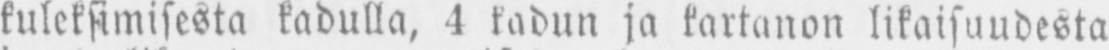kuleksimisesta kadulla, 4 kadun ja kartanon likaisuudesta
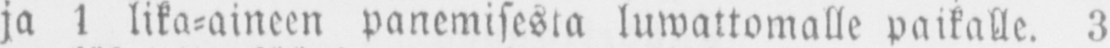ja 1 lika-aineen panemisesta luwattomalle paikalle. 3
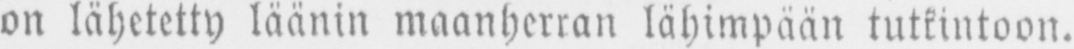on lähetetty läänin maanherran lähimpään tutkintoon.
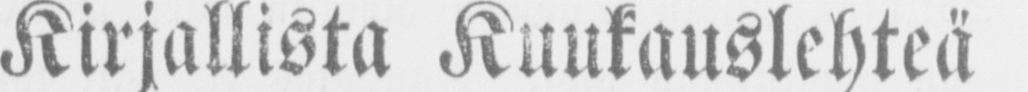Kirjallista Kuukauslehteä
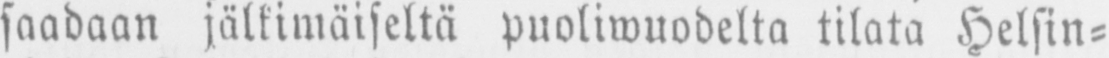saadaan jälkimäiseltä puoliwuodelta tilata Helsin-
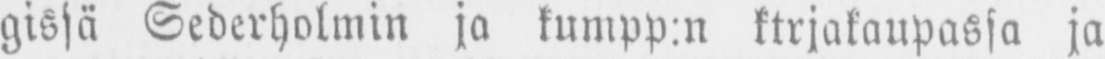gissä Sederholmin ja kumpp:n ktrjakaupassa ja
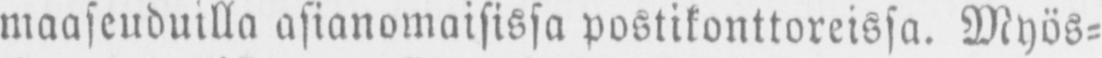maaseuduilla asianomaisissa postikonttoreissa. Myös-
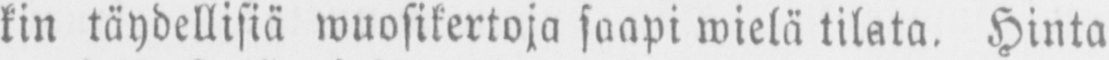kin täydellisiä wuosikertoja saapi wielä tilata. Hinta
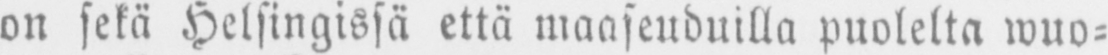on sekä Helsingissä että maaseuduilla puolelta wuo-
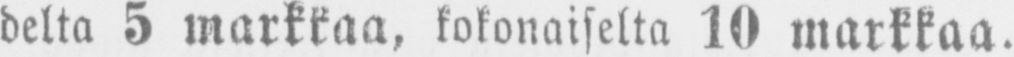delta 5 markkaa, kokonaiselta 10 markkaa.
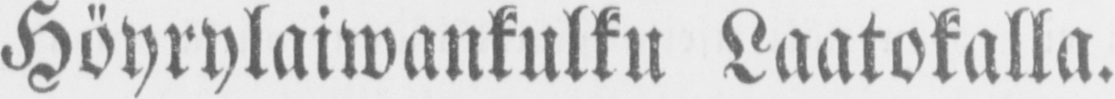Höyrylaiwankulku Laatokalla.
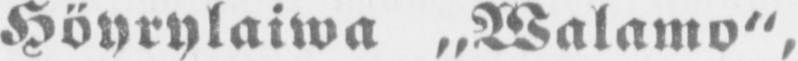Höyrylaiwa „Walamo",
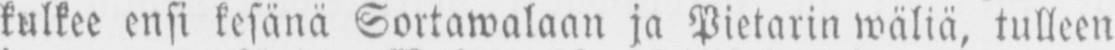kulkee ensi kesänä Sortawalaan ja Pietarin wäliä, tulleen
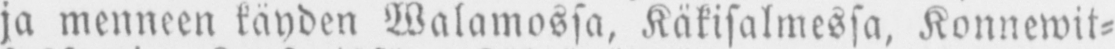ja menneen käyden Walamossa, Käkisalmessa, Konnewit-
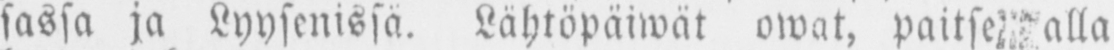sassa ja Lyysenissä. Lähtöpäiwät owat, paitse alla
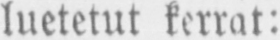luetetut kerrat:
